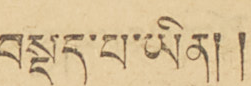བསྡད་པ་ཡིན།།
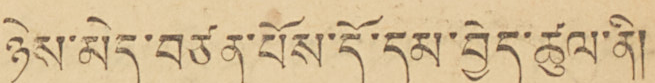ཉེས་མེད་བཙན་པོས་དོ་དམ་བྱེད་ཚུལ་ནི།
